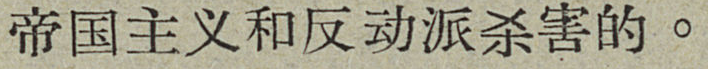帝国主义和反动派杀害的。
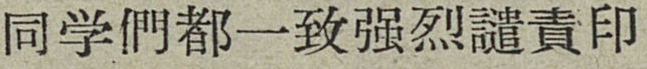同学們都一致强烈譴責印
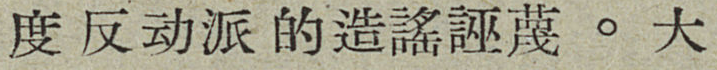度反动派的造謠誣蔑。大
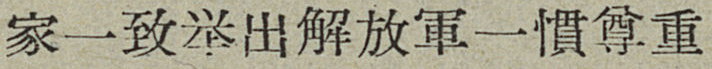家一致举出解放軍一慣尊重
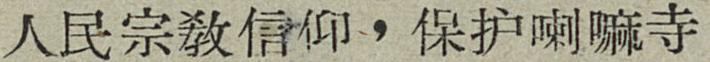人民宗敎信仰，保护喇嘛寺
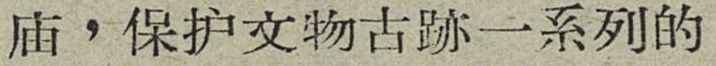庙，保护文物古跡一系列的
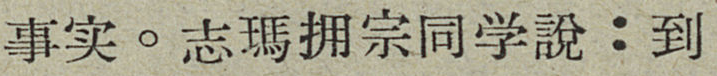事实。志瑪拥宗同学說：到
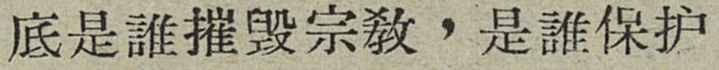底是誰摧毀宗敎，是誰保护
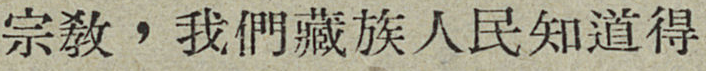宗敎，我們藏族人民知道得
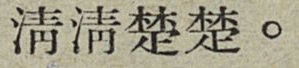清清楚楚。
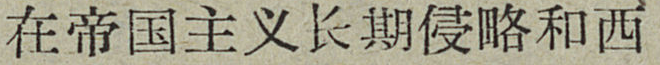在帝国主义长期侵略和西
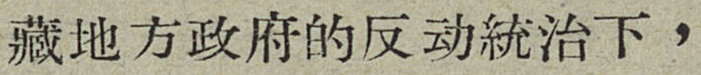藏地方政府的反动統治下，
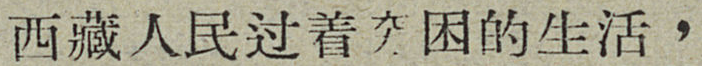西藏人民过着穷困的生活，
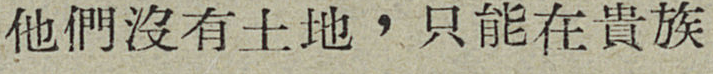他們沒有土地，只能在貴族
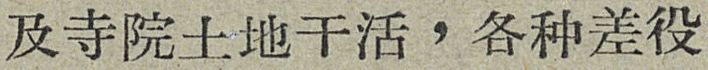及寺院土地干活，各种差役
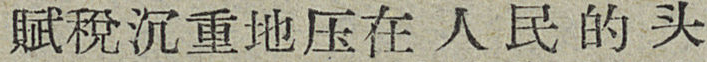賦稅沉重地压在人民的头
